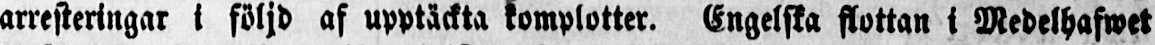arresteringar i följd af upptäckta komplotter. Engelska flottan i Medelhafwet
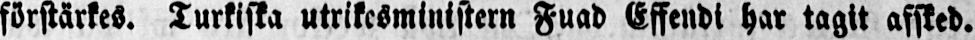förstärkes. Turkiska utrikesministern Fuad Effendi har tagit afsked.
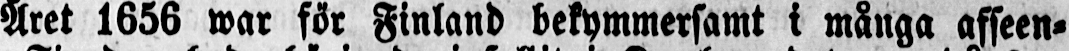Året 1656 war för Finland bekymmersamt i många afseen-
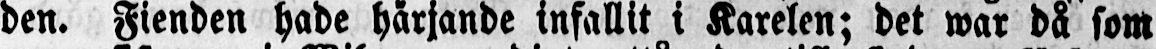den. Fienden hade härjande infallit i Karelen; det war då som
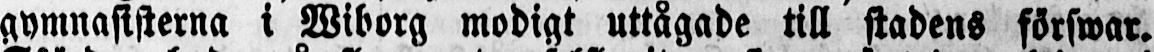gymnasisterna i Wiborg modigt uttågade till stadens förswar.
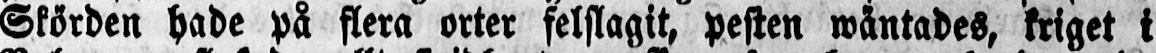Skörden hade på flera orter felslagit, pesten wäntades, kriget i
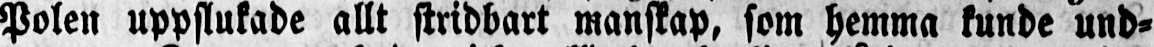Polen uppslukade allt stridbart manskap, som hemma kunde und-
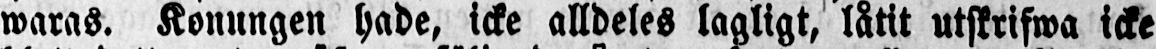waras. Konungen hade, icke alldeles lagligt, låtit utskrifwa icke
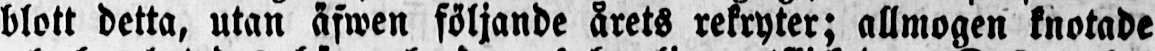blott detta, utan äfwen följande årets rekryter; allmogen knotade
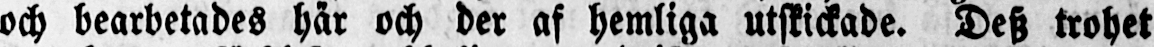och bearbetades här och der af hemliga utskickade. Desz trohet
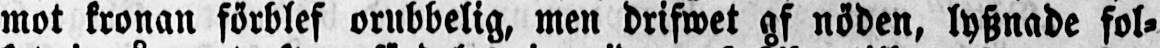mot kronan förblef orubbelig, men drifwet af nöden, lysznade fol-
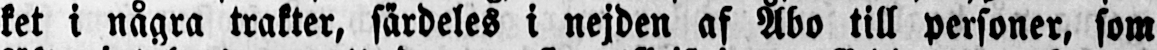ket i några trakter, särdeles i nejden af Åbo till personer, som
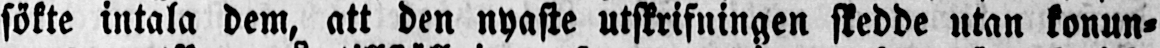sökte intala dem, att den nyaste utskrifningen skedde utan konun-
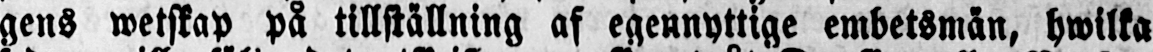gens wetskap på tillställning af egennyttige embetsmän, hwilka
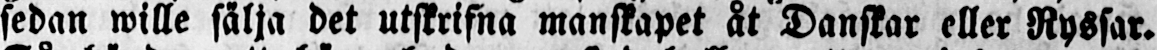sedan wille sälja det utskrifna manskapet åt Danskar eller Ryssar.
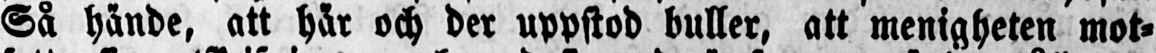Så hände, att här och der uppstod buller, att menigheten mot-
